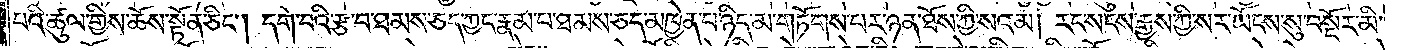པའི་ཚུལ་གྱིས་ཆོས་སྟོན་ཅིང༌། དགེ་བའི་རྩ་བ་ཐམས་ཅད་ཀྱང་རྣམ་པ་ཐམས་ཅད་མཁྱེན་པ་ཉིད་མ་གཏོགས་པར་ཉན་ཐོས་ཀྱི་སའམ། རང་སངས་རྒྱས་ཀྱི་སར་ཡོངས་སུ་བསྔོར་མི་
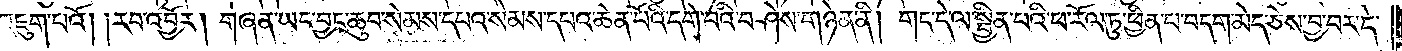འཇུག་པའོ། །རབ་འབྱོར། གཞན་ཡང་བྱང་ཆུབ་སེམས་དཔའ་སེམས་དཔའ་ཆེན་པོའི་དགེ་བའི་བཤེས་གཉེན་ནི། གང་དེ་ལ་སྦྱིན་པའི་ཕ་རོལ་ཏུ་ཕྱིན་པ་བདག་མེད་ཅེས་བྱ་བར་དེ་
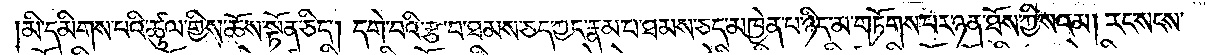མི་དམིགས་པའི་ཚུལ་གྱིས་ཆོས་སྟོན་ཅིང༌། དགེ་བའི་རྩ་བ་ཐམས་ཅད་ཀྱང་རྣམ་པ་ཐམས་ཅད་མཁྱེན་པ་ཉིད་མ་གཏོགས་པར་ཉན་ཐོས་ཀྱི་སའམ། རང་སངས་
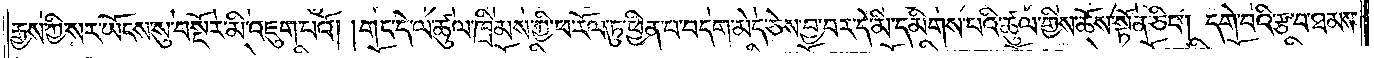རྒྱས་ཀྱི་སར་ཡོངས་སུ་བསྔོར་མི་འཇུག་པའོ། །གང་དེ་ལ་ཚུལ་ཁྲིམས་ཀྱི་ཕ་རོལ་ཏུ་ཕྱིན་པ་བདག་མེད་ཅེས་བྱ་བར་དེ་མི་དམིགས་པའི་ཚུལ་གྱིས་ཆོས་སྟོན་ཅིང༌། དགེ་བའི་རྩ་བ་ཐམས་
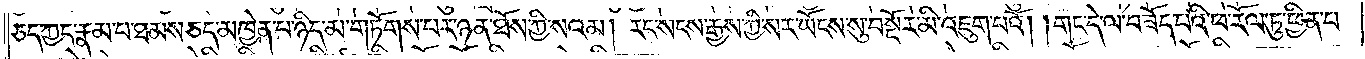ཅད་ཀྱང་རྣམ་པ་ཐམས་ཅད་མཁྱེན་པ་ཉིད་མ་གཏོགས་པར་ཉན་ཐོས་ཀྱི་སའམ། རང་སངས་རྒྱས་ཀྱི་སར་ཡོངས་སུ་བསྔོར་མི་འཇུག་པའོ། །གང་དེ་ལ་བཟོད་པའི་ཕ་རོལ་ཏུ་ཕྱིན་པ་
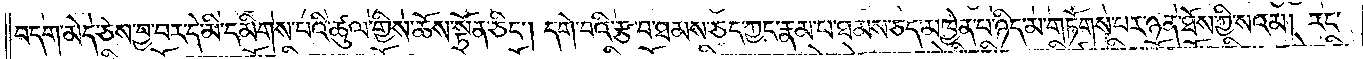བདག་མེད་ཅེས་བྱ་བར་དེ་མི་དམིགས་པའི་ཚུལ་གྱིས་ཆོས་སྟོན་ཅིང༌། དགེ་བའི་རྩ་བ་ཐམས་ཅད་ཀྱང་རྣམ་པ་ཐམས་ཅད་མཁྱེན་པ་ཉིད་མ་གཏོགས་པར་ཉན་ཐོས་ཀྱི་སའམ། རང་
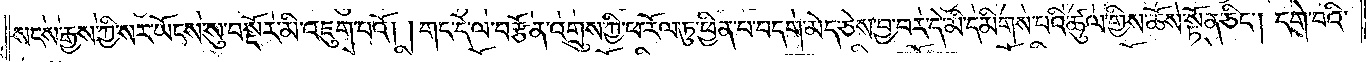སངས་རྒྱས་ཀྱི་སར་ཡོངས་སུ་བསྔོར་མི་འཇུག་པའོ། །གང་དེ་ལ་བརྩོན་འགྲུས་ཀྱི་ཕ་རོལ་ཏུ་ཕྱིན་པ་བདག་མེད་ཅེས་བྱ་བར་དེ་མི་དམིགས་པའི་ཚུལ་གྱིས་ཆོས་སྟོན་ཅིང༌། དགེ་བའི་
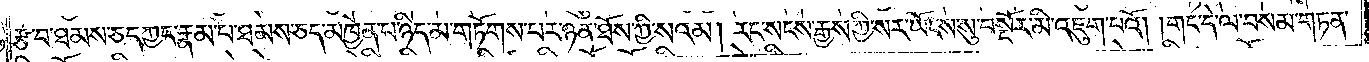རྩ་བ་ཐམས་ཅད་ཀྱང་རྣམ་པ་ཐམས་ཅད་མཁྱེན་པ་ཉིད་མ་གཏོགས་པར་ཉན་ཐོས་ཀྱི་སའམ། རང་སངས་རྒྱས་ཀྱི་སར་ཡོངས་སུ་བསྔོར་མི་འཇུག་པའོ། །གང་དེ་ལ་བསམ་གཏན་
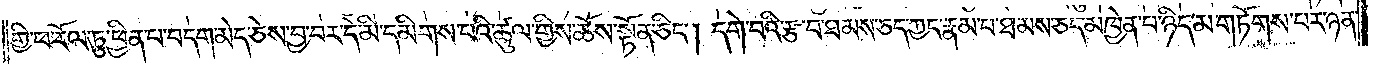གྱི་ཕ་རོལ་ཏུ་ཕྱིན་པ་བདག་མེད་ཅེས་བྱ་བར་དེ་མི་དམིགས་པའི་ཚུལ་གྱིས་ཆོས་སྟོན་ཅིང༌། དགེ་བའི་རྩ་བ་ཐམས་ཅད་ཀྱང་རྣམ་པ་ཐམས་ཅད་མཁྱེན་པ་ཉིད་མ་གཏོགས་པར་ཉན་
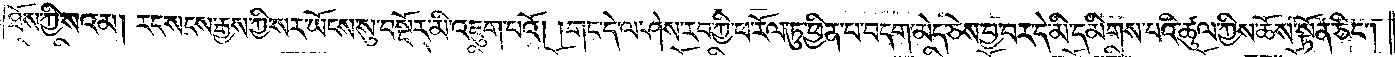ཐོས་ཀྱི་སའམ། རང་སངས་རྒྱས་ཀྱི་སར་ཡོངས་སུ་བསྔོར་མི་འཇུག་པའོ། །གང་དེ་ལ་ཤེས་རབ་ཀྱི་ཕ་རོལ་ཏུ་ཕྱིན་པ་བདག་མེད་ཅེས་བྱ་བར་དེ་མི་དམིགས་པའི་ཚུལ་གྱིས་ཆོས་སྟོན་ཅིང༌།
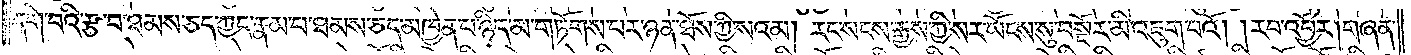དགེ་བའི་རྩ་བ་ཐམས་ཅད་ཀྱང་རྣམ་པ་ཐམས་ཅད་མཁྱེན་པ་ཉིད་མ་གཏོགས་པར་ཉན་ཐོས་ཀྱི་སའམ། རང་སངས་རྒྱས་ཀྱི་སར་ཡོངས་སུ་བསྔོར་མི་འཇུག་པའོ། །རབ་འབྱོར། གཞན་
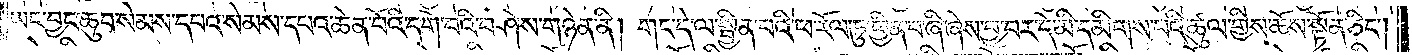ཡང་བྱང་ཆུབ་སེམས་དཔའ་སེམས་དཔའ་ཆེན་པོའི་དགེ་བའི་བཤེས་གཉེན་ནི། གང་དེ་ལ་སྦྱིན་པའི་ཕ་རོལ་ཏུ་ཕྱིན་པ་ཞི་ཞེས་བྱ་བར་དེ་མི་དམིགས་པའི་ཚུལ་གྱིས་ཆོས་སྟོན་ཅིང༌།
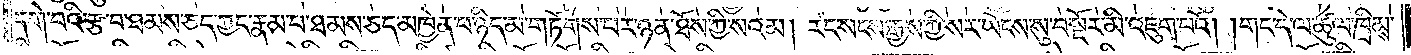དགེ་བའི་རྩ་བ་ཐམས་ཅད་ཀྱང་རྣམ་པ་ཐམས་ཅད་མཁྱེན་པ་ཉིད་མ་གཏོགས་པར་ཉན་ཐོས་ཀྱི་སའམ། རང་སངས་རྒྱས་ཀྱི་སར་ཡོངས་སུ་བསྔོར་མི་འཇུག་པའོ། །གང་དེ་ལ་ཚུལ་ཁྲིམས་
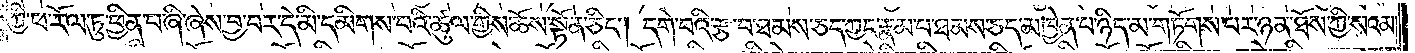ཀྱི་ཕ་རོལ་ཏུ་ཕྱིན་པ་ཞི་ཞེས་བྱ་བར་དེ་མི་དམིགས་པའི་ཚུལ་གྱིས་ཆོས་སྟོན་ཅིང༌། དགེ་བའི་རྩ་བ་ཐམས་ཅད་ཀྱང་རྣམ་པ་ཐམས་ཅད་མཁྱེན་པ་ཉིད་མ་གཏོགས་པར་ཉན་ཐོས་ཀྱི་སའམ།
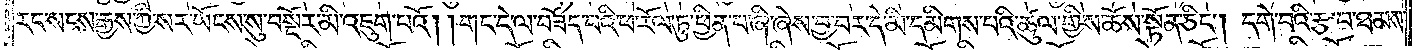རང་སངས་རྒྱས་ཀྱི་སར་ཡོངས་སུ་བསྔོར་མི་འཇུག་པའོ། །གང་དེ་ལ་བཟོད་པའི་ཕ་རོལ་ཏུ་ཕྱིན་པ་ཞི་ཞེས་བྱ་བར་དེ་མི་དམིགས་པའི་ཚུལ་གྱིས་ཆོས་སྟོན་ཅིང༌། དགེ་བའི་རྩ་བ་ཐམས་
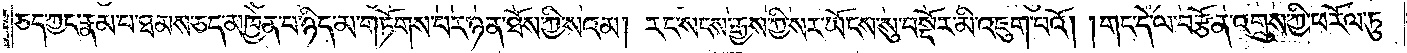ཅད་ཀྱང་རྣམ་པ་ཐམས་ཅད་མཁྱེན་པ་ཉིད་མ་གཏོགས་པར་ཉན་ཐོས་ཀྱི་སའམ། རང་སངས་རྒྱས་ཀྱི་སར་ཡོངས་སུ་བསྔོར་མི་འཇུག་པའོ། །གང་དེ་ལ་བརྩོན་འགྲུས་ཀྱི་ཕ་རོལ་ཏུ་
